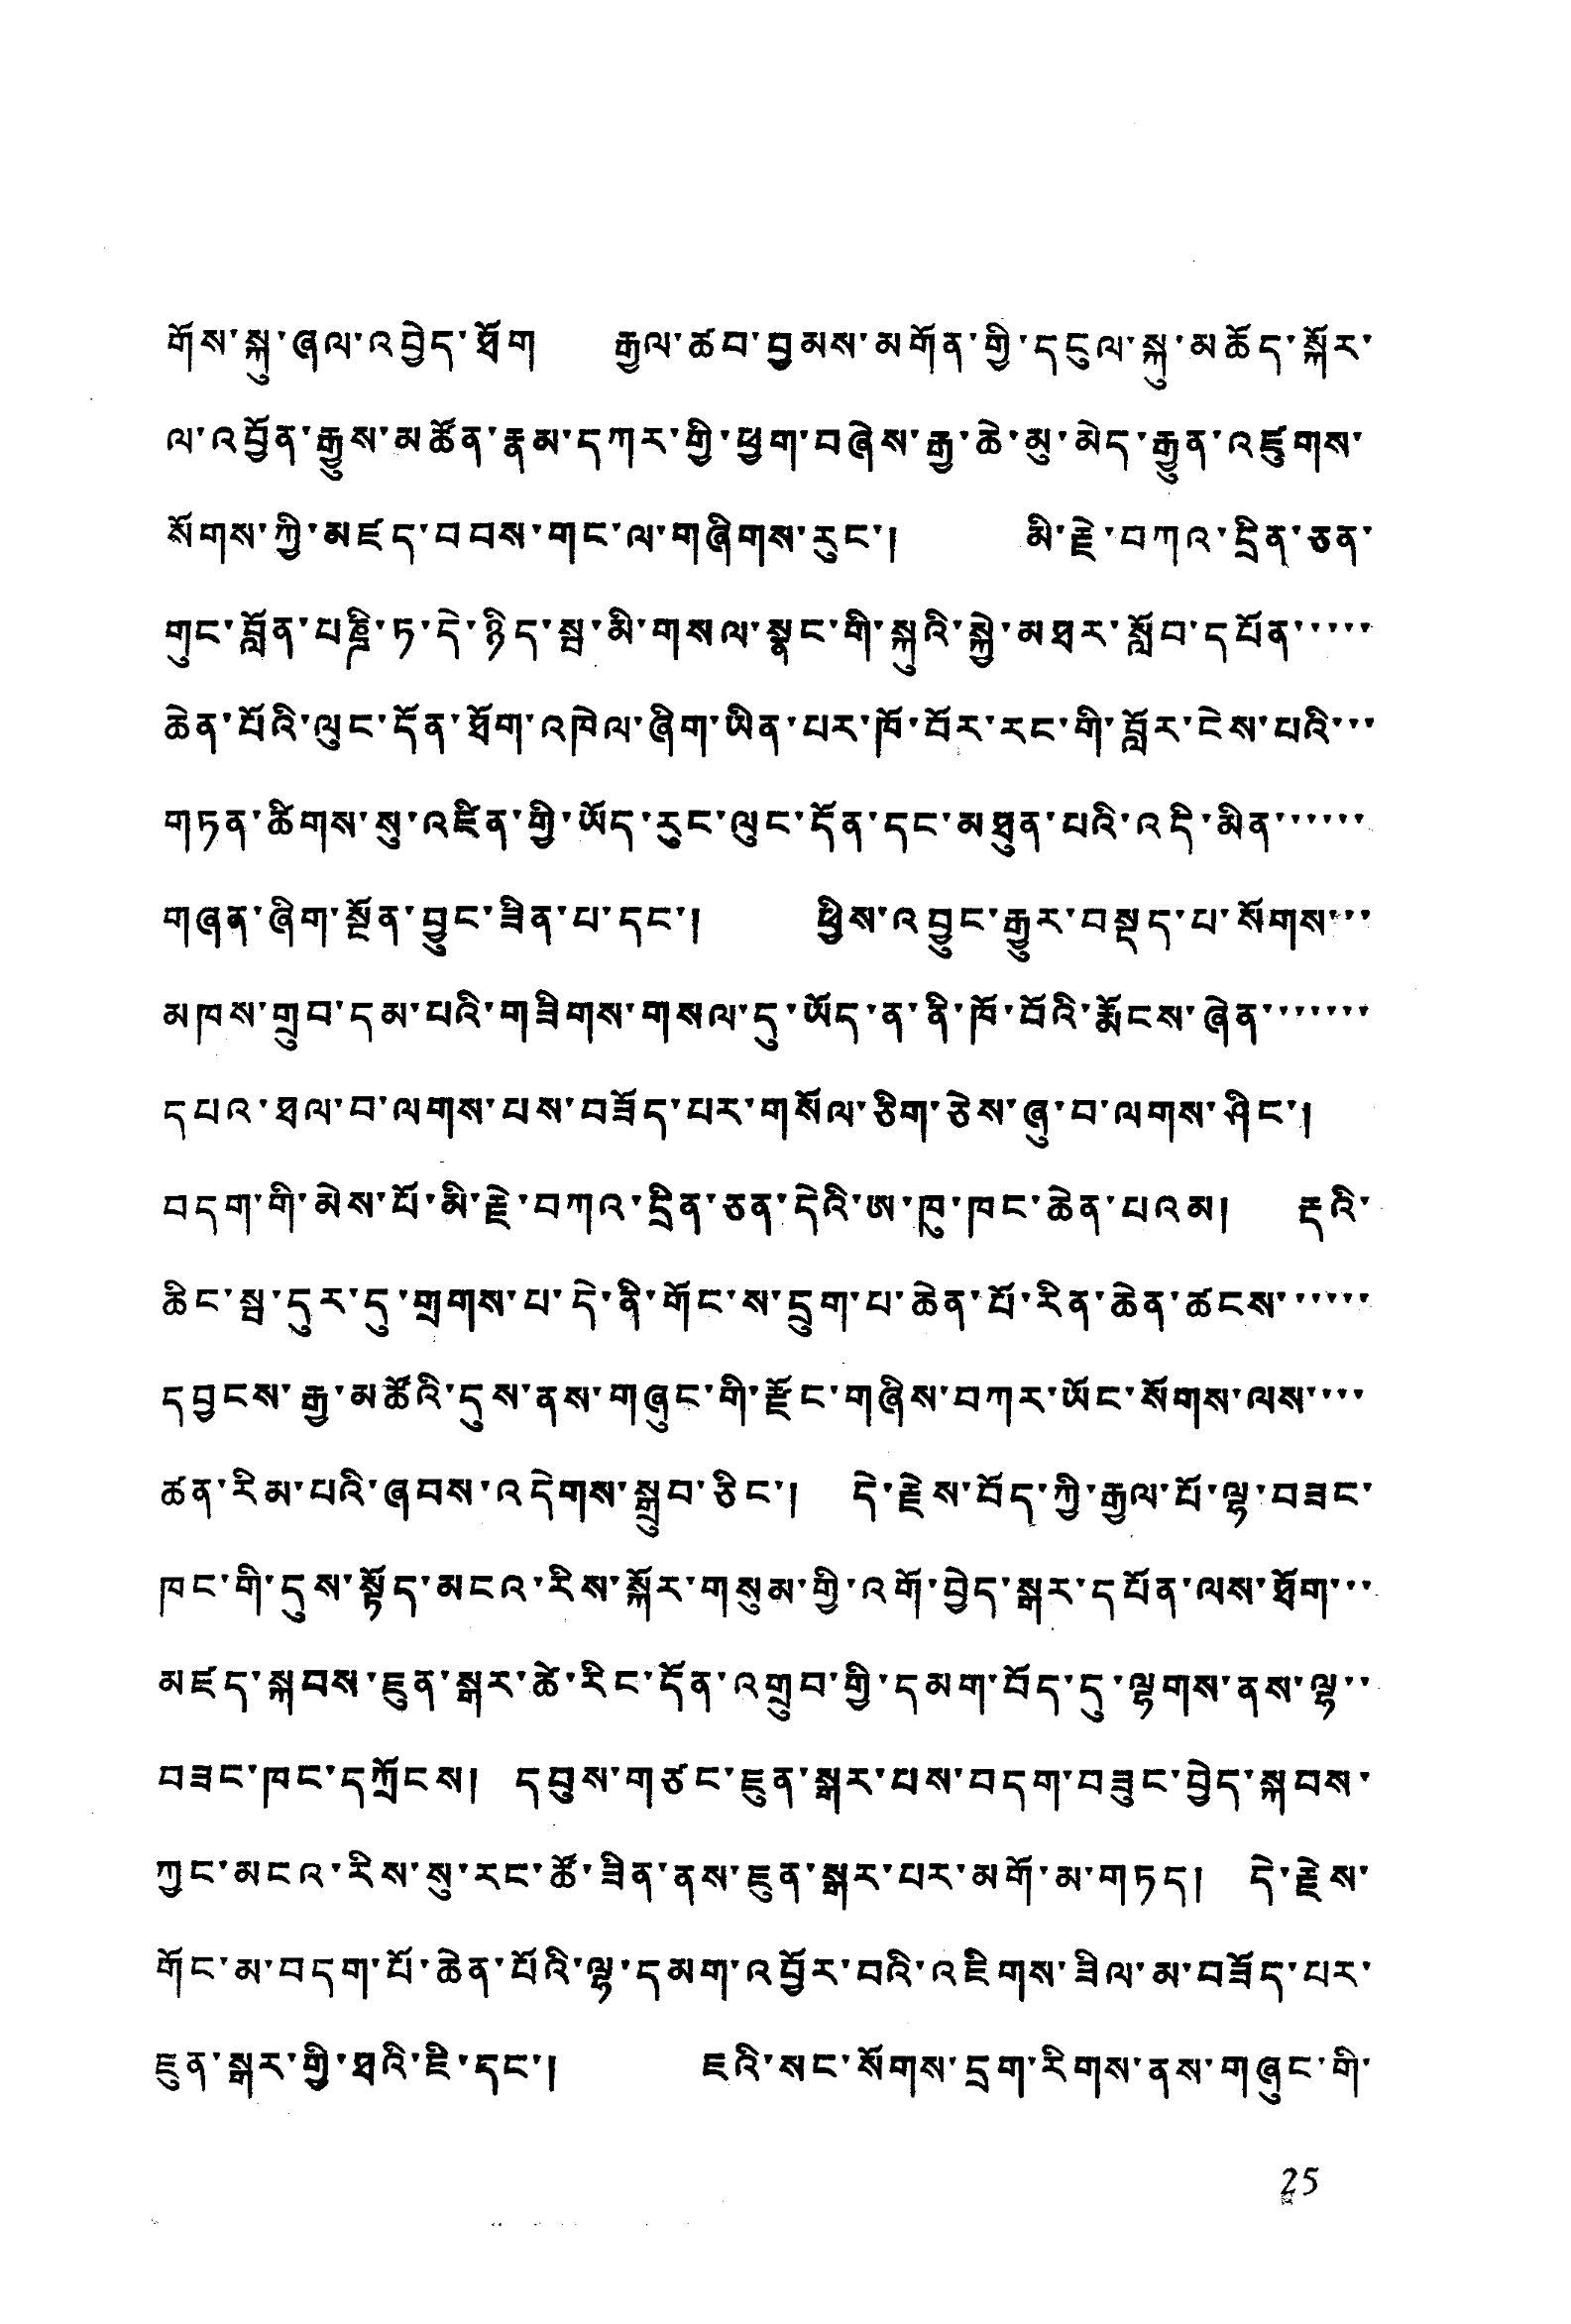གོས་སྐུ་ཞལ་འབྱེད་ཐོག རྒྱལ་ཚབ་བྱམས་མགོན་གྱི་དངུལ་སྐུ་མཆོད་སྐོར་
ལ་འབྱོན་རྒྱུས་མཚོན་རྣམ་དཀར་གྱི་ཕྱག་བཞེས་རྒྱ་ཆེ་མུ་མེད་རྒྱུན་འཛུགས་
སོགས་ཀྱི་མཛད་བབས་གང་ལ་གཞིགས་རུང་། མི་རྗེ་བཀའ་དྲིན་ཅན་
གུང་བློན་པཎྜི་ཏ་དེ་ཉིད་སྦ་མི་གསལ་སྣང་གི་སྐུའི་སྐྱེ་མཐར་སློབ་དཔོན་་་་་
ཆེན་པོའི་ལུང་དོན་ཐོག་འཁེལ་ཞིག་ཡིན་པར་ཁོ་བོར་རང་གི་བློར་ངེས་པའི་་་
གཏན་ཚིགས་སུ་འཛིན་གྱི་ཡོད་རུང་ལུང་དོན་དང་མཐུན་པའི་འདི་མིན་་་་་་
གཞན་ཞིག་སྔོན་བྱུང་ཟིན་པ་དང་། ཕྱིས་འབྱུང་རྒྱུར་བསྡད་པ་སོགས་་་
མཁས་གྲུབ་དམ་པའི་གཟིགས་གསལ་དུ་ཡོད་ན་ནི་ཁོ་བོའི་རྨོངས་ཞེན་་་་་་་
དཔའ་ཐལ་བ་ལགས་པས་བཟོད་པར་གསོལ་ཅིག་ཅེས་ཞུ་བ་ལགས་ཤིང་།
བདག་གི་མེས་པོ་མི་རྗེ་བཀའ་དྲིན་ཅན་དེའི་ཨ་ཁུ་ཁང་ཆེན་པའམ། རྡའི་
ཆིང་སྦ་དུར་དུ་གྲགས་པ་དེ་ནི་གོང་ས་དྲུག་པ་ཆེན་པོ་རིན་ཆེན་ཚངས་་་་་་
དབྱངས་རྒྱ་མཚོའི་དུས་ནས་གཞུང་གི་རྫོང་གཞིས་བཀར་ཡོང་སོགས་ལས་་་་
ཚན་རིམ་པའི་ཞབས་འདེགས་སྒྲུབ་ཅིང་། དེ་རྗེས་བོད་ཀྱི་རྒྱལ་པོ་ལྷ་བཟང་
ཁང་གི་དུས་སྟོད་མངའ་རིས་སྐོར་གསུམ་གྱི་འགོ་བྱེད་སྒར་དཔོན་ལས་ཐོག་་་
མཛད་སྐབས་ཇུན་སྒར་ཚེ་རིང་དོན་འགྲུབ་གྱི་དམག་བོད་དུ་ལྷགས་ནས་ལྷ་་
བཟང་ཁང་དཀྲོངས་།་དབུས་གཙང་ཇུན་སྒར་པས་བདག་བཟུང་བྱེད་སྐབས་
ཀྱང་མངའ་རིས་སུ་རང་ཚོ་ཟིན་ནས་ཇུན་སྒར་པར་མགོ་མ་གཏད། དེ་རྗེས་
གོང་མ་བདག་པོ་ཆེན་པོའི་ལྷ་དམག་འབྱོར་བའི་འཇིགས་ཟིལ་མ་བཟོད་པར་
ཇུན་སྒར་གྱི་ཐའི་ཇི་དང་། ཇའི་སང་སོགས་དྲག་རིགས་ནས་གཞུང་གི་
25
